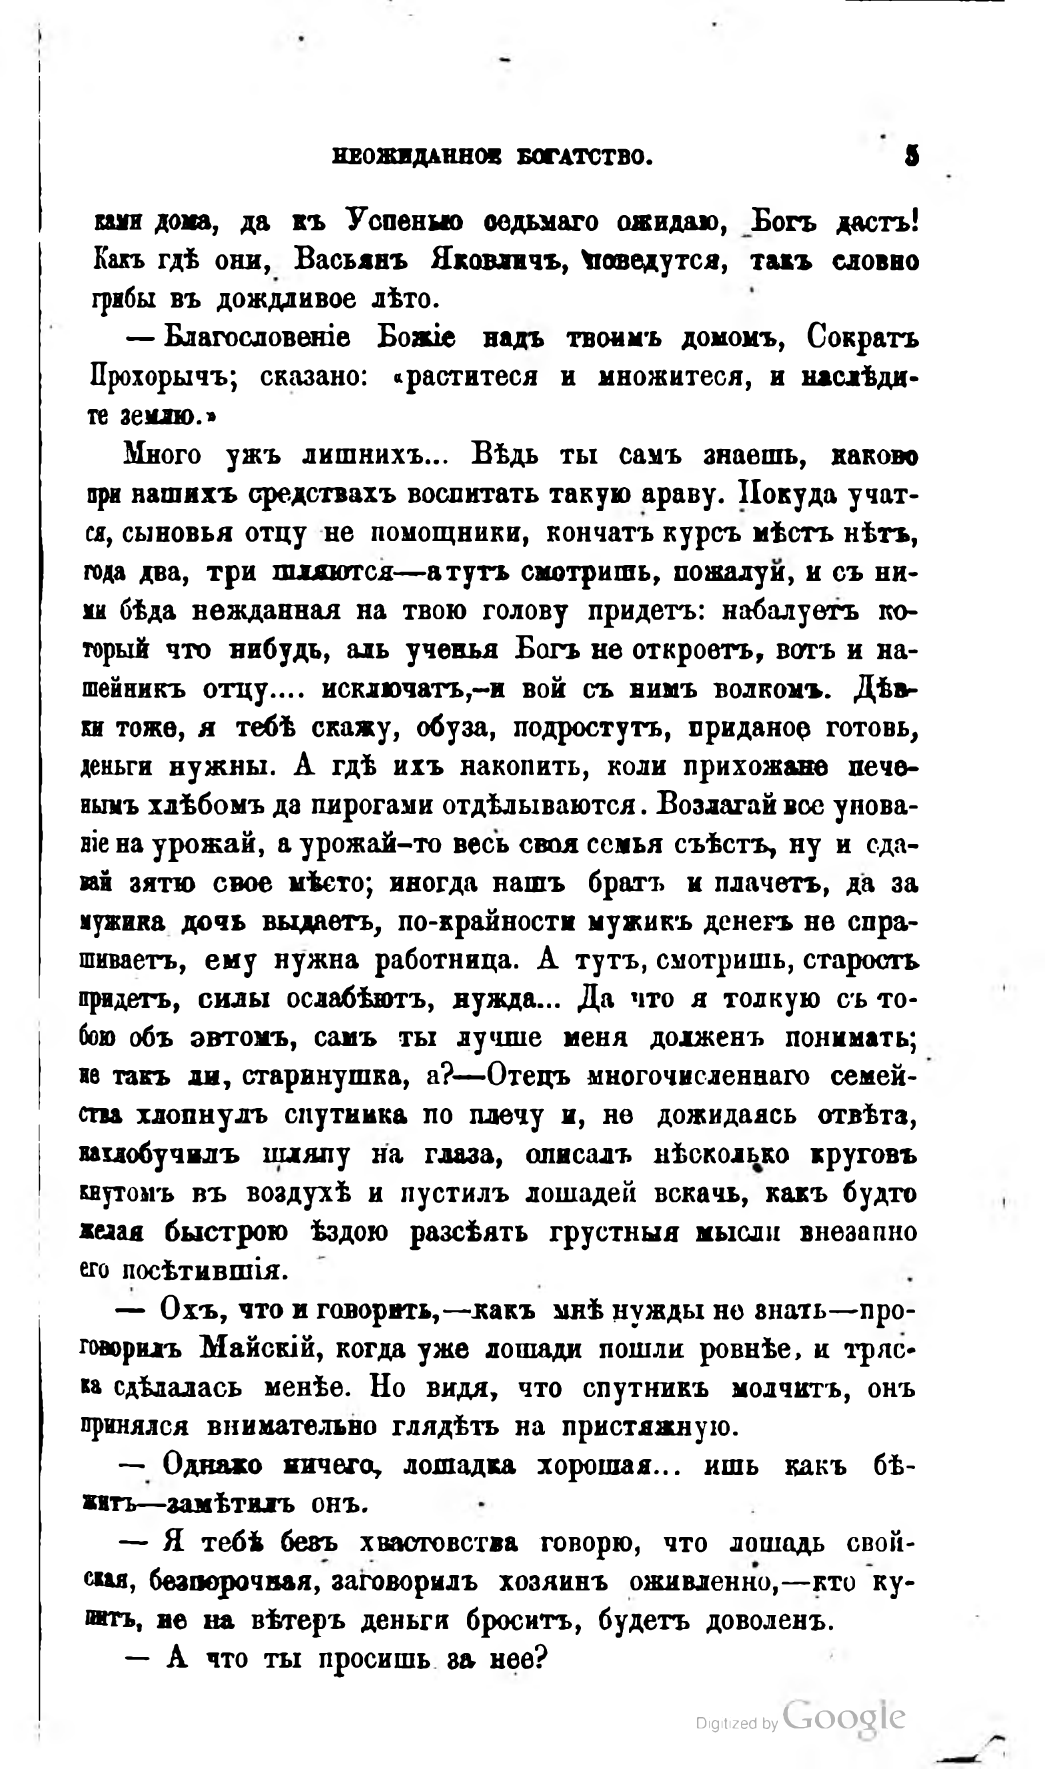НЕОЖИДАННОЕ БОГАТСТВО.                           5
ками дома, да къ Успенью седьмаго ожидаю, Богъ дастъ! Какъ гдѣ они, Васьянъ Яковличъ, поведутся, такъ словно грибы въ дождливое лѣто.
— Благословеніе Божіе надъ твоимъ домомъ, Сократъ Прохорычъ; сказано: «раститеся и множитеся, и наслѣдите землю.»
Много ужъ лишнихъ... Вѣдь ты самъ знаешь, каково при нашихъ средствахъ воспитать такую араву. Покуда учатся, сыновья отцу не помощники, кончатъ курсъ мѣстъ нѣтъ, года два, три шляются — а тутъ смотришь, пожалуй, и съ ними бѣда нежданная на твою голову придетъ: набалуетъ который что нибудь, аль ученья Богъ не откроетъ, вотъ и нашейникъ отцу... исключатъ,-и вой съ нимъ  . Дѣвки тоже, я тебѣ скажу, обуза, подростутъ, приданое готовь, деньги нужны. А гдѣ ихъ накопить, коли прихожане печенымъ хлѣбомъ да пирогами отдѣлываются. Возлагай все упованіе на урожай, а урожай-то весь своя семья съѣстъ, ну и сдавай зятю свое мѣсто; иногда нашъ братъ и плачетъ, да за мужика дочь выдаетъ, по-крайности мужикъ денегъ не спрашиваетъ, ему нужна работница. А тутъ, смотришь, старостъ придетъ, силы ослабѣютъ, нужда... Да что я толкую съ тобою объ эвтомъ, самъ ты лучше меня долженъ понимать; не такъ ли, старинушка, а? — Отецъ многочисленнаго семейства хлопнулъ спутника по плечу и, не дожидаясь отвѣта, нахлобучилъ шляпу на глаза, описалъ нѣсколько круговъ кнутомъ въ воздухѣ и пустилъ лошадей вскачь, какъ будто желая быстрою ѣздою разсѣять грустныя мысли внезапно его посѣтившія.
— Охъ, что и говорить, — какъ мнѣ нужды не знать — проговорилъ Майскій, когда уже лошади пошли ровнѣе, и тряска сдѣлалась менѣе. Но видя, что спутникъ молчитъ, онъ принялся внимательно глядѣть на пристяжную.
— Однако ничего, лошадка хорошая... ишь какъ бѣжитъ — замѣтилъ онъ.
— Я тебѣ безъ хвастовства говорю, что лошадь свойская, безпорочная, заговорилъ хозяинъ оживленно, — кто купитъ, не на вѣтеръ деньги броситъ, будетъ доволенъ.
— А что ты просишь за нее?
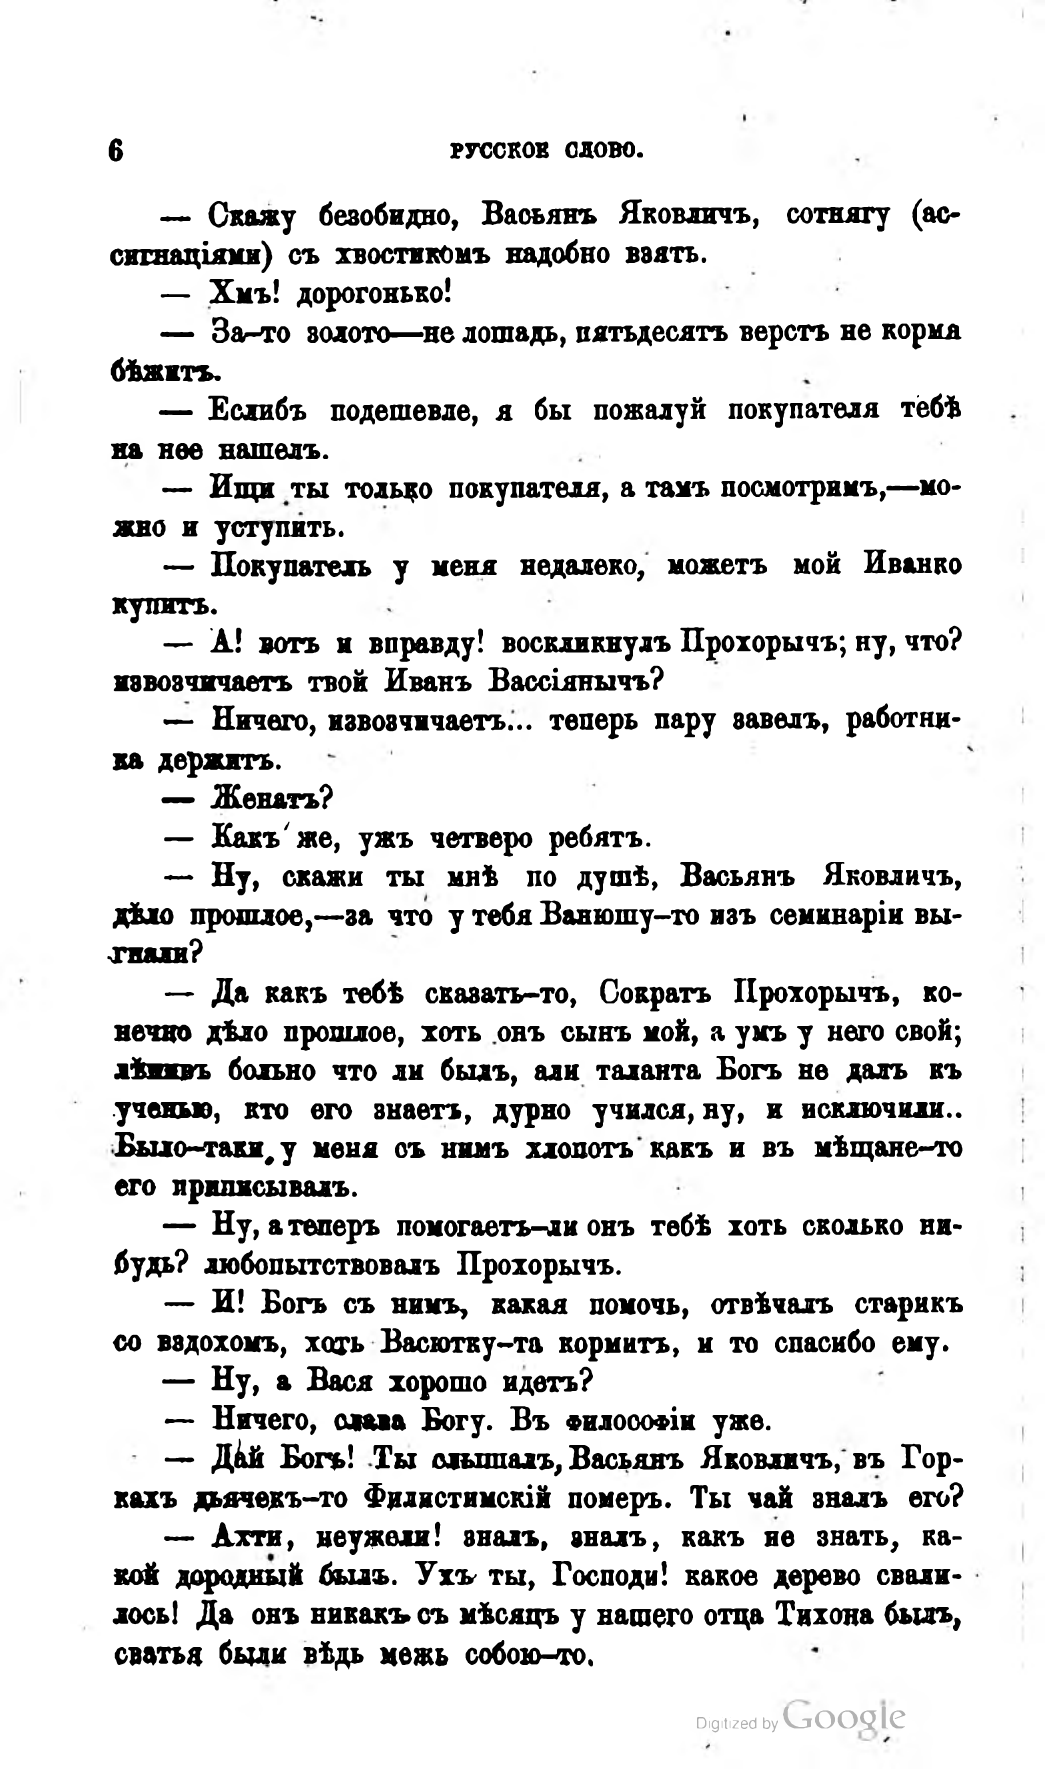6                        РУССКОЕ СЛОВО.
— Скажу безобидно, Васьянъ Яковличъ, сотнягу (ассигнаціями) съ хвостикомъ надобно взять.
— Хмъ! дорогонько!
— За-то золото — не лошадь, пятьдесятъ верстъ не корма бѣжитъ.
— Еслибъ подешевле, я бы пожалуй покупателя тебѣ на нее нашелъ.
— Ищи ты только покупателя, а тамъ посмотримъ, — можно и уступить.
— Покупатель у меня недалеко, можетъ мой Иванко купитъ.
— А! вотъ и вправду! воскликнулъ Прохорычъ; ну, что? извозчичаетъ твой Иванъ Вассіянычъ?
— Ничего, извозчичаетъ... теперь пару завелъ, работника держитъ.
— Женатъ?
— Какъ же, ужъ четверо ребятъ.
— Ну, скажи ты мнѣ по душѣ, Васьянъ Яковличъ, дѣло прошлое, — за что у тебя Ванюшу-то изъ семинаріи выгнали?
— Да какъ тебѣ скавать-то, Сократъ Прохорычъ, конечно дѣло прошлое, хоть онъ сынъ мой, а умъ у него свой; лѣнивъ больно что ли былъ, али таланта Богъ не далъ къ ученью, кто его знаетъ, дурно учился, ну, и исключили.. Было-таки, у меня съ нимъ хлопотъ какъ и въ мѣщане-то его приписывалъ.
— Ну, а теперь помогаетъ-ли онъ тебѣ хоть сколько нибудь? любопытствовалъ Прохорычъ.
— И! Богъ съ нимъ, какая помочь, отвѣчалъ старикъ со вздохомъ, хоть Васютку-та кормитъ, и то спасибо ему.
— Ну, а Вася хорошо идетъ?
— Ничего, слава Богу. Въ философіи уже.
— Дай Богъ! Ты слышалъ, Васьянъ Яковличъ, въ Горкахъ дьячекъ-то Филистимскій померъ. Ты чай зналъ его?
— Ахти, неужели! зналъ, зналъ, какъ не знать, какой дородный былъ. Ухъ ты, Господи! какое дерево свалилось! Да онъ никакъ съ мѣсяцъ у нашего отца Тихона былъ, сватья были вѣдь межь собою-то.
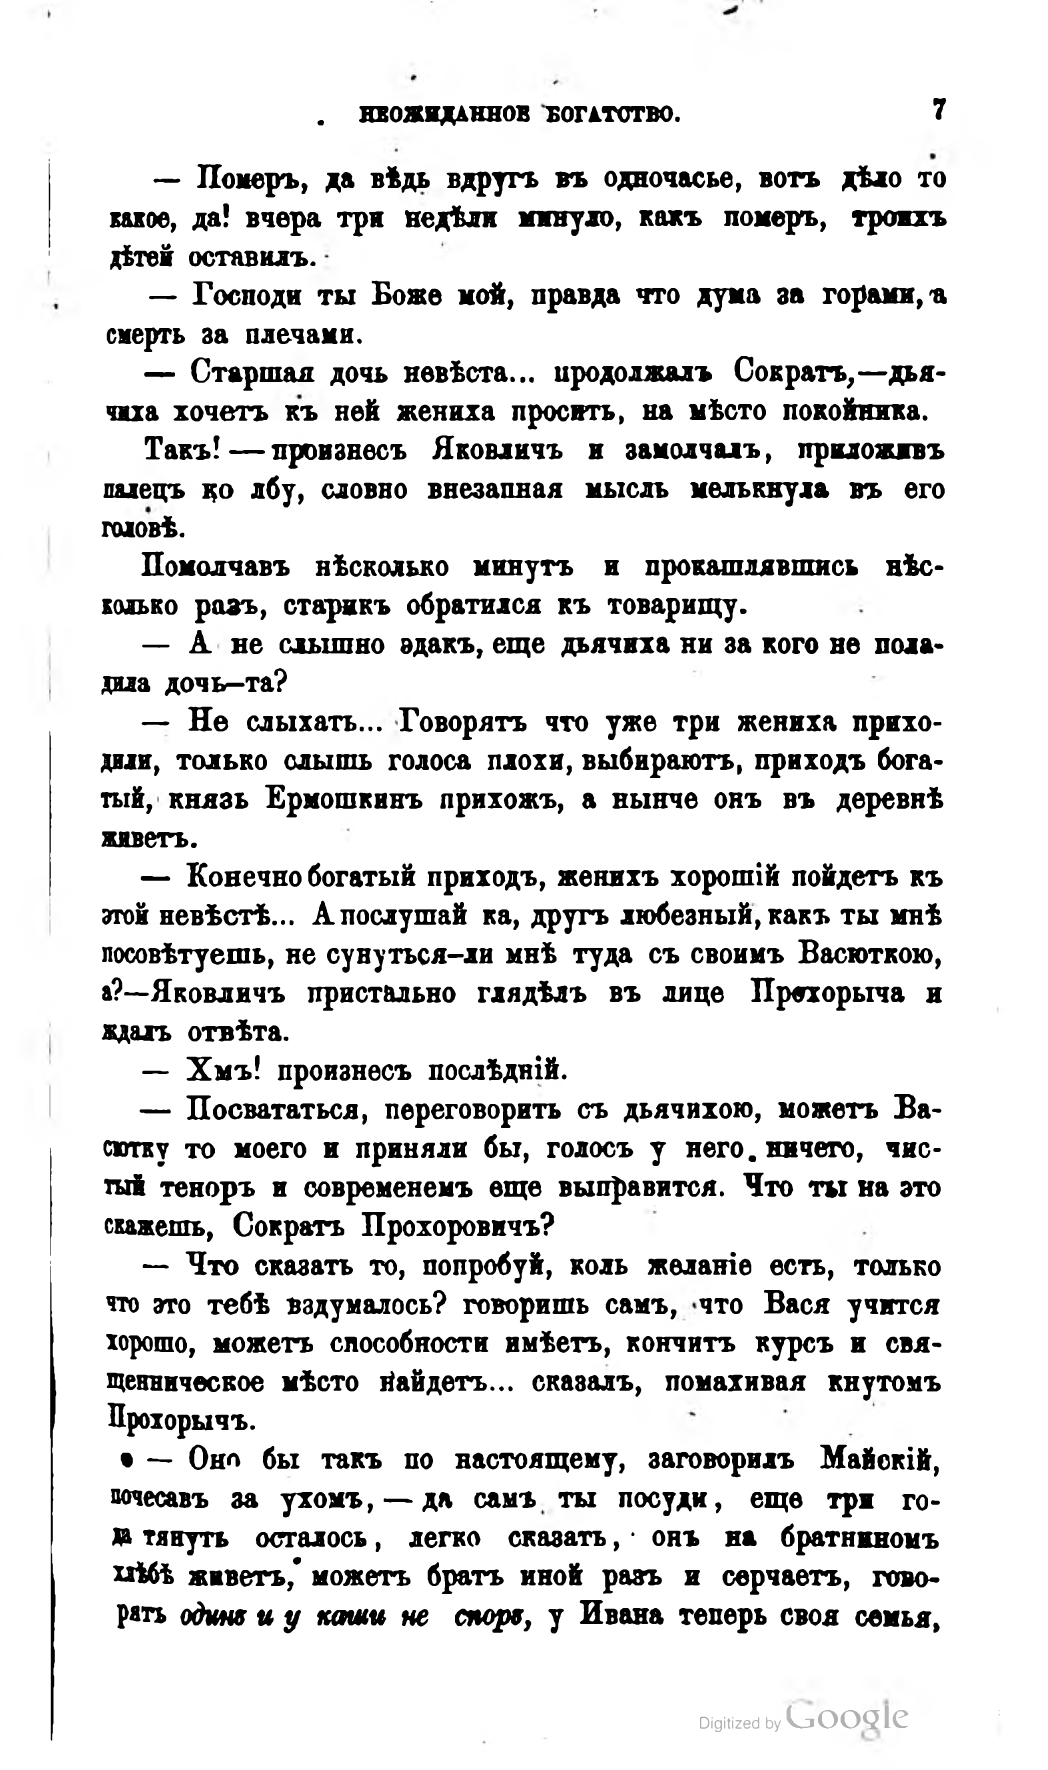НЕОЖИДАННОЕ БОГАТСТВО.                      7
— Померъ, да вѣдь вдругъ въ одночасье, вотъ дѣло то какое, да! вчера три недѣли минуло, какъ померъ, троихъ дѣтей оставилъ.
— Господи ты Боже мой, правда что дума за горами, а смерть за плечами.
— Старшая дочь невѣста... продолжалъ Сократъ, — дьячиха хочетъ къ ней жениха просить, на мѣсто покойника.
Такъ! — произнесъ Яковличъ и замолчалъ, приложивъ палецъ ко лбу, словно внезапная мысль мелькнула въ его головѣ.
Помолчавъ нѣсколько минутъ и прокашлявшись нѣсколько разъ, старикъ обратился къ товарищу.
— А не слышно эдакъ, еще дьячиха ни за кого не поладила дочь-та?
— Не слыхать... Говорятъ что уже три жениха приходили, только слышь голоса плохи, выбираютъ, приходъ богатый, князь Ермошкинъ прихожъ, а нынче онъ въ деревнѣ живетъ.
— Конечно богатый приходъ, женихъ хорошій пойдетъ къ этой невѣстѣ... А послушай ка, другъ любезный, какъ ты мнѣ посовѣтуешь, не сунуться-ли мнѣ туда съ своимъ Васюткою, а? — Яковличъ пристально глядѣлъ въ лице Прохорыча и ждалъ отвѣта.
— Хмъ! произнесъ послѣдній.
— Посвататься, переговорить съ дьячихою, можетъ Васютку то моего и приняли бы, голосъ у него, ничего, чистый теноръ и современемъ еще выправится. Что ты на это скажешь, Сократъ Прохоровичъ?
— Что сказать то, попробуй, коль желаніе есть, только что это тебѣ вздумалось? говоришь самъ, что Вася учится хорошо, можетъ способности имѣетъ, кончитъ курсъ и священническое мѣсто найдетъ... сказалъ, помахивая кнутомъ Прохорычъ.
 — Оно бы такъ по настоящему, заговорилъ Майскій, почесавъ за ухомъ, — да самъ ты посуди, еще три года тянуть осталось, легко сказать, онъ на братниномъ хлѣбѣ живетъ, можетъ братъ иной разъ и серчаетъ, говорятъ одинъ и у каши не споръ, у Ивана теперь своя семья,
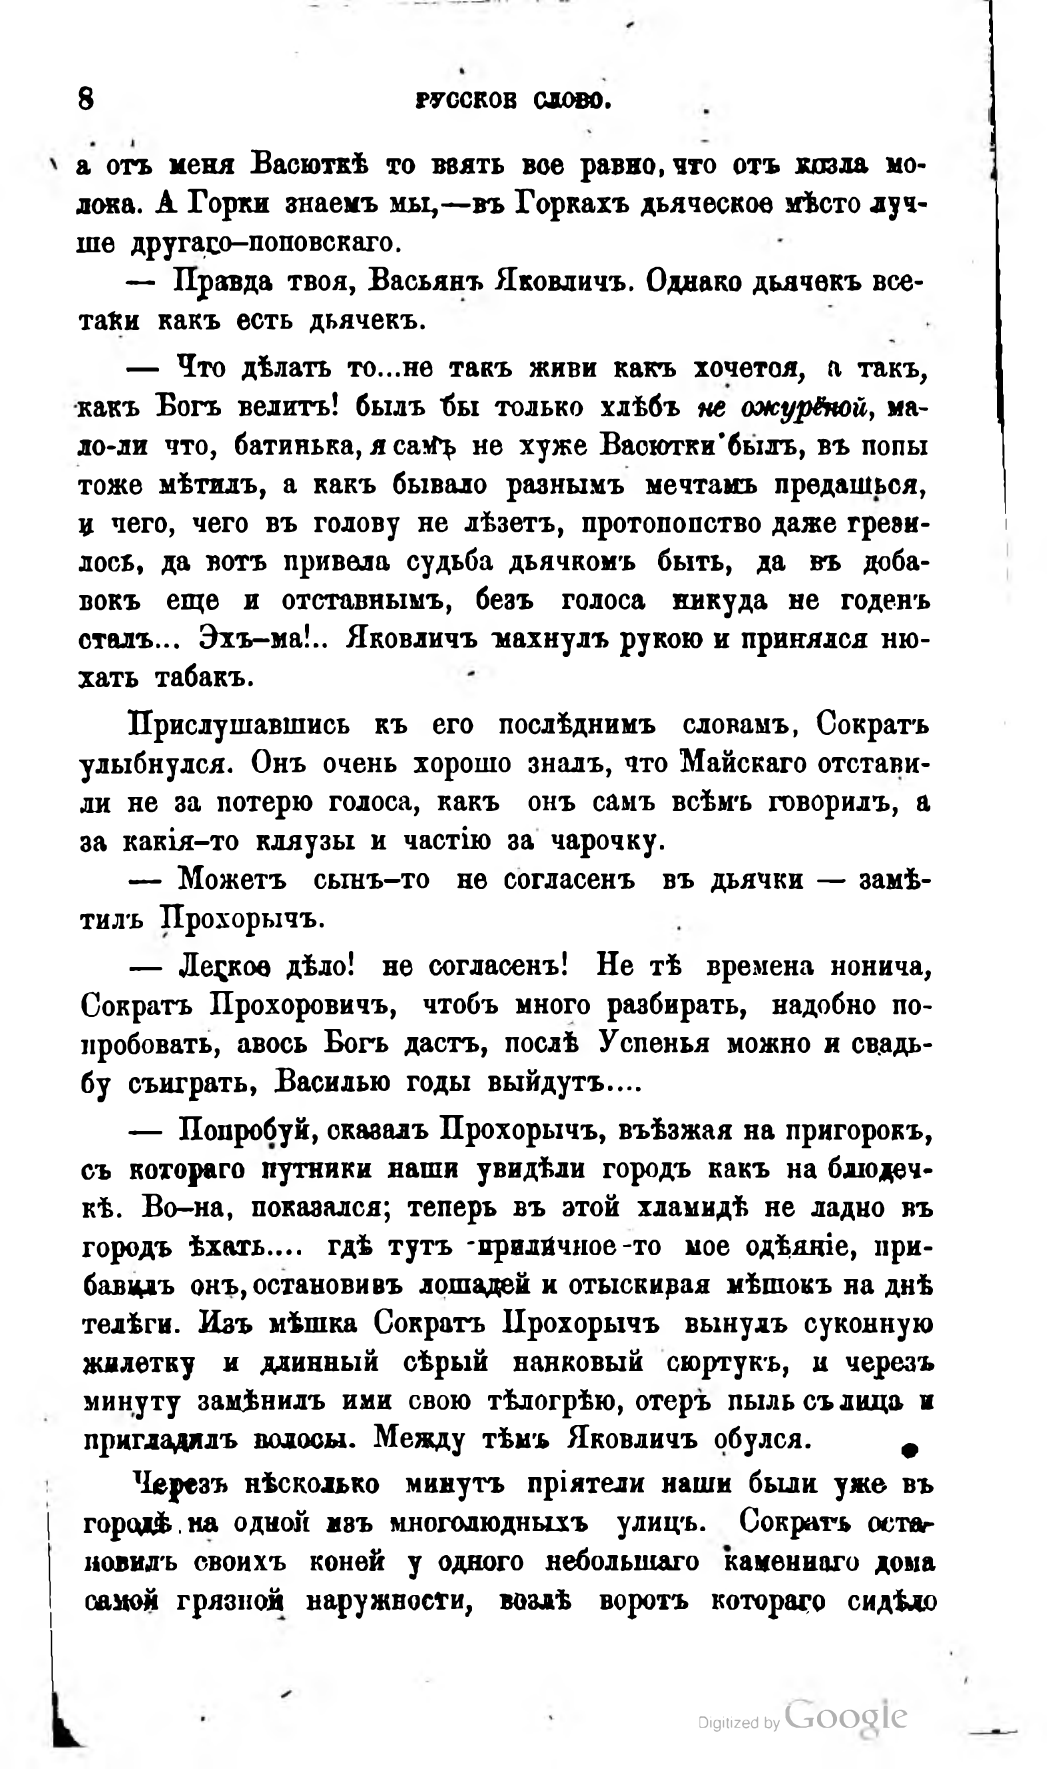8                        РУССКОЕ СЛОВО.
а отъ меня Васюткѣ то взять все равно, что отъ козла молока. А Горки знаемъ мы, — въ Горкахъ дьяческое мѣсто лучше другаго-поповскаго.
— Правда твоя, Васьянъ Яковличъ. Однако дьячекъ все-таки какъ есть дьячекъ.
— Что дѣлать то… не такъ живи какъ хочется, а такъ, какъ Богъ велитъ! былъ бы только хлѣбъ не ожурёной, мало-ли что, батинька, я самъ не хуже Васютки былъ, въ попы тоже мѣтилъ, а какъ бывало разнымъ мечтамъ предашься, и чего, чего въ голову не лѣзетъ, протопопство даже грезилось, да вотъ привела судьба дьячкомъ быть, да въ добавокъ еще и отставнымъ, безъ голоса никуда не годенъ сталъ... Эхъ-ма!.. Яковличъ махнулъ рукою и принялся нюхать табакъ.
Прислушавшись къ его послѣднимъ словамъ, Сократъ улыбнулся. Онъ очень хорошо зналъ, что Майскаго отставили не за потерю голоса, какъ онъ самъ всѣмъ говорилъ, а за какія-то кляузы и частію за чарочку.
— Можетъ сынъ-то не согласенъ въ дьячки — замѣтилъ Прохорычъ.
— Легкое дѣло! не согласенъ! Не тѣ времена нонича, Сократъ Прохоровичъ, чтобъ много разбирать, надобно попробовать, авось Богъ дастъ, послѣ Успенья можно и свадьбу съиграть, Василью годы выйдутъ...
— Попробуй, сказалъ Прохорычъ, въѣзжая на пригорокъ, съ котораго путники наши увидѣли городъ какъ на блюдечкѣ. Во-на, показался; теперь въ этой хламидѣ не ладно въ городъ ѣхать... гдѣ тутъ приличное-то мое одѣяніе, прибавилъ онъ, остановивъ лошадей и отыскирая мѣшокъ на днѣ телѣги. Изъ мѣшка Сократъ Прохорычъ вынулъ суконную жилетку и длинный сѣрый нанковый сюртукъ, и черезъ минуту замѣнилъ ими свою тѣлогрѣю, отеръ пыль съ лица и пригладилъ волосы. Между тѣмъ Яковличъ обулся.
Черезъ нѣсколько минутъ пріятели наши были уже въ городѣ на одной изъ многолюдныхъ улицъ. Сократъ остановилъ своихъ коней у одного небольшаго каменнаго дома самой грязной наружности, возлѣ воротъ котораго сидѣло